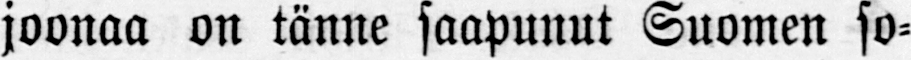joonaa on tänne saapunut Suomen so-
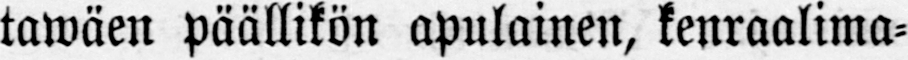tawäen päällikön apulainen, kenraalima-
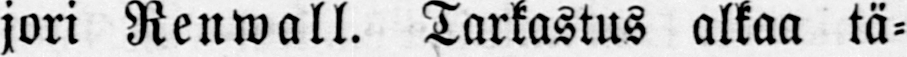jori Renwall. Tarkastus alkaa tä-
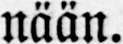nään.
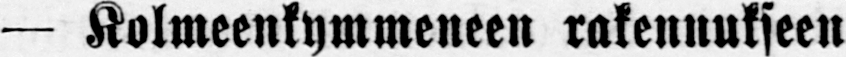— Kolmeenkymmeneen rakennukseen
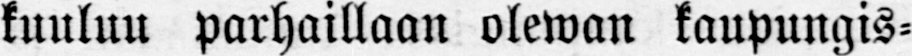kuuluu parhaillaan olewan kaupungis-
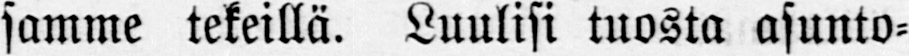samme tekeillä. Luulisi tuosta asunto-
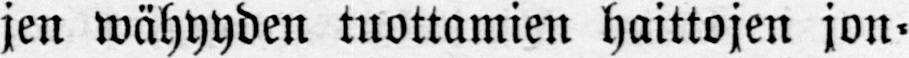jen wähyyden tuottamien haittojen jon-
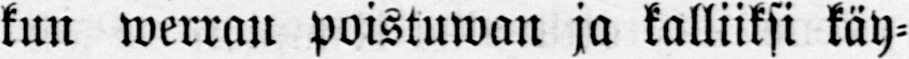kun werran poistuwan ja kalliiksi käy-
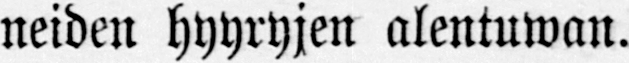neiden hyyryjen alentuwan.
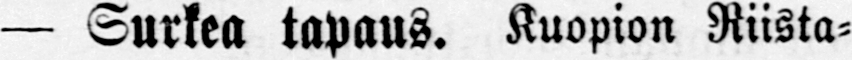— Surkea tapaus. Kuopion Riista-
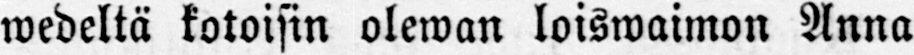wedeltä kotoisin olewan loiswaimon Anna
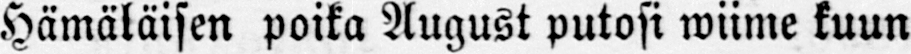Hämäläisen poika August putosi wiime kuun
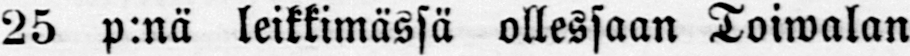25 p.nä leikkimässä ollessaan Toiwalan
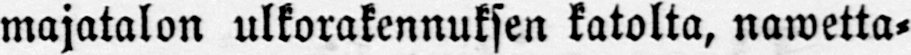majatalon ulkorakennuksen katolta, nawetta-
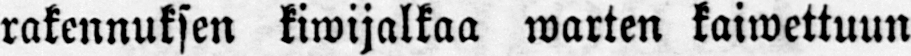rakennuksen kiwijalkaa warten laiwettuun
